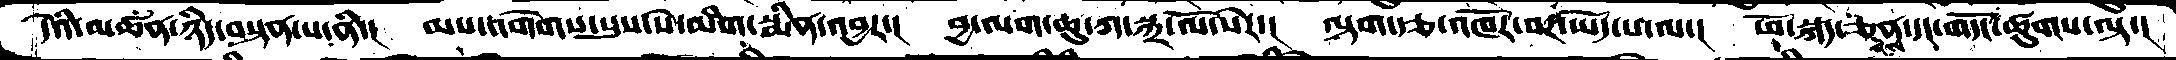དེའི་མཚན་ཉིད་བསྟན་པ་ནི་།  མས་བགེགས་སུས་སེ་མིག་སྨིན་འབྱར་།།  བྱ་ལག་ཆུ་ཀ་སྐྲ་ལོ་སེར་།  ལྟག་རྩ་འཁོར་བར་ཡོད་པ་ལ་། ཕོ་སྐད་ཅན་དང་གདོང་ཚུགས་ལྟ་།
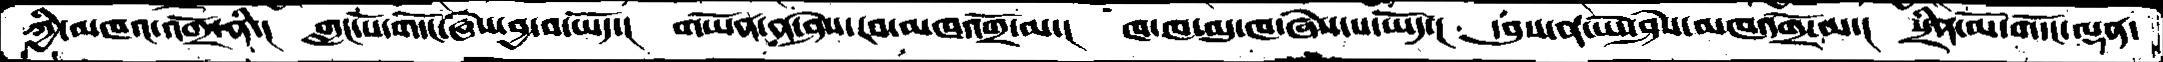ཀྱི་མཁའ་འགྲོ་ནི་།  གླང་པོ་གདོང་ཞེས་བྱ་བ་ཡོད་།  གཡོན་ན་ཤེས་རབ་མཁའགྲོ་མ་།  ཁ་ཁ་མུ་ཁ་ཞེས་པ་ཡོད་།  དབུས་ན་ཡེ་ཤེས་མཁའགྲོ་མ་།  སྲིན་མོ་གདོང་ལྡན་
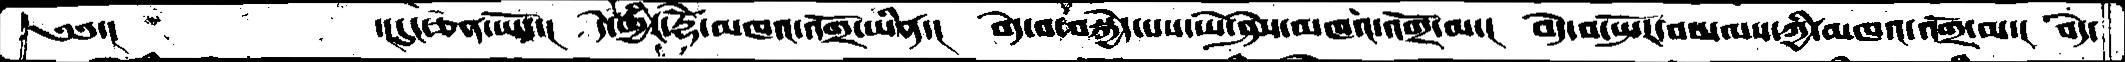༅༅་།       ་།དུང་ཅན་ཡོད་།  དེ་ཕྱིར་རྡོེ་མཁའ་འགྲོ་ཡིན་།  བདེ་བ་བསྐྱེད་པས་ཡེ་ཤེས་མཁའ་འགྲོ་མ་།  བདེ་བ་སྤོར་བས་ལས་ཀྱི་མཁའ་འགྲོ་མ་།  བདེ་
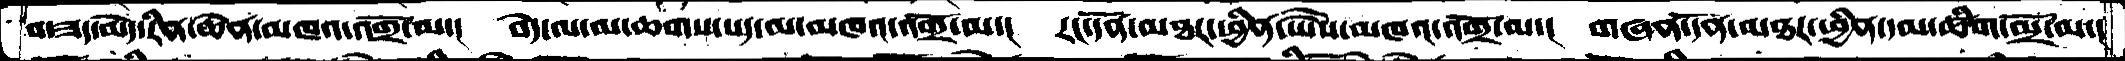བ་ཟད་མེད་རིན་ཆེན་མཁའ་འགྲོ་མ་།  བདེ་ལ་མ་ཆགས་པད་མ་མཁའ་འགྲོ་མ་།  རང་དོན་མཐཪ་ཕྱིན་ཡཻས་མཁའ་འགྲོ་མ་།  གཞན་དོན་མཐར་ཕྱིན་དམ་ཚིག་མྲོ་མ་།
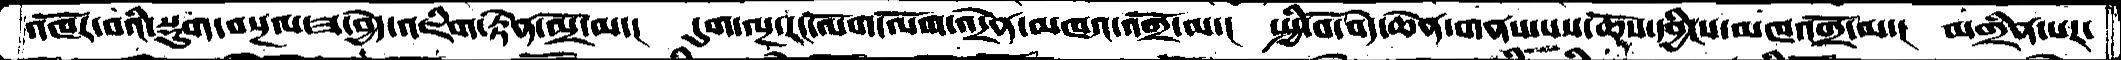འཁོར་བའི་སྡུག་བསྔལ་ཟ་བྱེད་འཇིག་རྟེན་མྲོ་མ་།  དུག་ལྔ་རང་ལོག་ལོག་འདྲེན་མཁའ་འགྲོ་མ་།  སྤྱི་བོ་བདེ་ཆེན་གནས་པས་ཆོས་དབྱིངས་མཁའ་འགྲོ་མ་།  མགྲིན་པར་
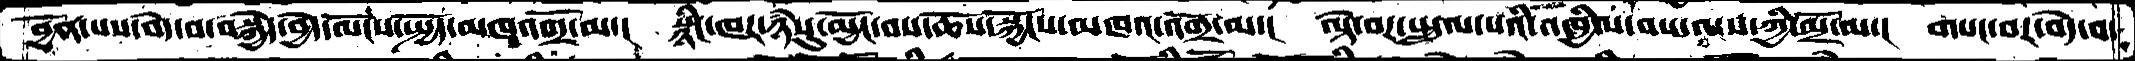བྱོན་པས་བདེ་བ་བསྐྱེད་བྱེད་ལོངས་སྤྱོད་མཁའགྲོ་མ་།  སྙིང་ཁར་ཉཾསུ་མྱོང་བས་ཆོས་སྐྱོངས་མཁའ་འགྲོ་མ་།  ལྟེ་བར་སྤྲུལ་པའི་འཁྱིལ་བས་ལས་ཀྱི་མྲོ་མ་།  གསང་བར་བདེ་བ་
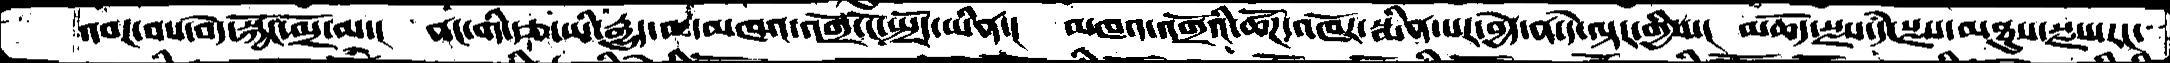འབར་བས་བདེ་སྐྱོང་མྲོ་མ་།  ནང་གི་རྩ་ཡི་རྒྱུད་ལ་མཁའ་འགྲོ་ངོ་སྤྲོད་ཡིན་།  མཁའ་འགྲོའི་ཚོཌ་འཁོར་སྨིན་པར་བྱེད་ན་དེ་ལྟར་གྱིས་།  མཆོད་སྫས་དེ་སྫས་མཐུས་སྫས་རང་
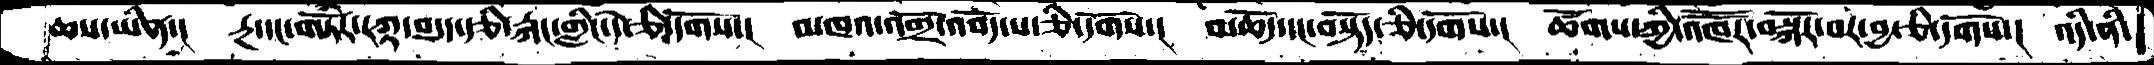ཆས་ཡིན་།  རྔ་དང་གཏོཾར་རཀྟ་བདུད་རྩི་རྐང་གླིང་དེ་ཅི་དགོས་།  མཁའ་འགྲོ་འབོད་པ་ཅི་དགོས་།  མཆོད་དང་བསྟོད་ཅི་དགོས་།  ཚོགས་ཀྱི་འཁཽར་བསྐོར་བར་བྱ་ཅི་དགོས་།  འདི་ནི་
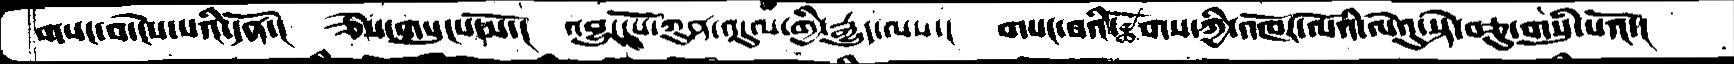གསང་བ་ངེས་པའི་དོན་།  ཅེས་གསུངས་སོ་།  འབྱུང་པོ་ཀུན་འདུལ་གྱི་རྒྱུད་ལས་།  གསང་བའི་ཚོགས་ཀྱི་འཁོར་ལོའི་ལེའུ་སྟེ་བཅུ་གསུཾ་པའོ་།
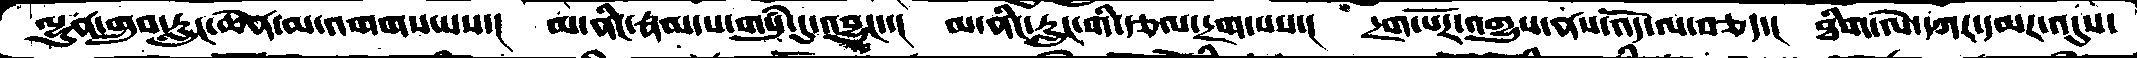ལྷུན་གྲུབ་རླུང་ཆེན་མ་འགགས་པས་།  མ་ནིང་རྣམ་པ་གསུཾ་དུ་འབྱུང་་།  མ་ནིང་རླུང་གི་རྩལ་དྲག་པས་།  དྲག་པོར་འགྱུས་ནས་འོད་ལ་བཅད་།  ཐིག་ལེ་དཀར་དམར་འདུས་
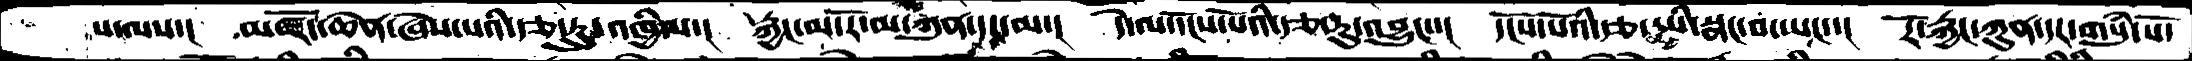པ་ལས་།  མཛོད་ཆེན་ཞེས་པའི་རྩ་རུ་འཁྱིལ་།  རྐྱང་མ་རོ་མ་ཀུན་དང་མ་།  དེ་ལ་དངོས་པོའི་རྩ་རུ་འབྱུང་་།  དངོས་པོའི་རྩ་ཡི་སྣང་བ་ཡང་་།  རོ་རྐྱང་ཀུན་དར་གསུཾ་པོ་
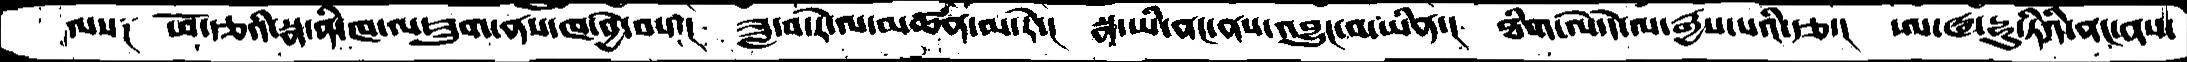ལས༑  ཕོ་རྩའི་སྣ་ནི་ཁ་ལ་ཟུག་ནས་ཁ་བྱེ་བས་།  ཟླ་བ་རེ་ལ་མཚན་མ་རེ་།  སྣ་ཡི་ནང་ནས་འབྱུང་བ་ཡིན་།  ཐིག་ལེ་དེ་ལ་རྒྱས་པའི་རྩ་།  ཨ་ཝ་དྷུ་ཏིའི་ནང་ནས་
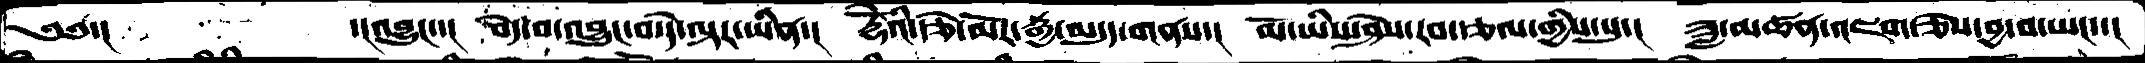༄༅་།        ་།འབྱུང་་།  བདེ་བ་འབྱུང་བ་དེ་ལྟར་ཡིན་།  རྡོེའི་རྩེ་མོར་རྒྱ་མདུད་གནས་།  མོ་ཡིས་ཤེས་རབ་རྩལ་གྱིས་སུ་། ཟླ་མཚན་འཇག་ཅེས་བྱ་བ་ཡང་་།
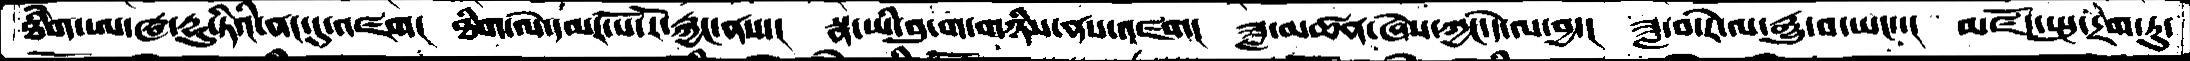ཐིགེ་ཨ་ཝ་དྷུ་ཏིའི་ནང་དུ་འཛག།  ཐིག་ལེ་དམར་པོ་རོ་རྐྱང་ནས་།  སྣ་ཡི་བུ་ག་གཉིས་ནས་འཇག།  ཟླ་མཚན་ཞེས་ཀྱང་དེ་ལ་བྱ་།  ཟླ་བ་རེ་ལ་རྒྱུ་བ་ཡང་་། མཛོད་སྤུ་དྲག་ཏུ་
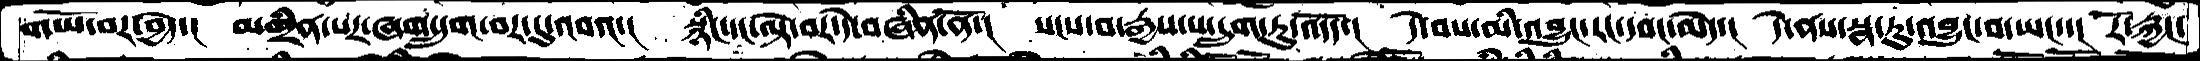གཡོ་བར་བྱེད་།  མགྲིན་པར་ཞག་དྲུག་བར་དུ་འབའ་།  སྙིང་དང་ལྟེ་བར་དེ་བཞིན་ནོ་།  སངས་བ་རྒྱས་པ་དྲུག་ཏུ་འདོད་།  དེ་བས་མི་འབྱུང་རང་དབང་མེད་།  དེ་ནས་སྣ་ཏུ་བྱུང་བ་ཡང་་། རོ་རྐྱང་
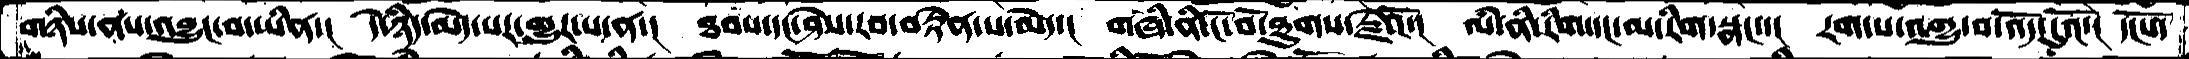གཉིས་ནས་འབྱུང་བ་ཡིན་།  དེ་ཉིད་མེད་པར་འགྱུར་པ་ན་།  ཐབས་དང་ཤེས་རབ་བརྟེན་པ་མེད་།  གཞི་ནི་ངོ་བོ་ཐུགས་རྗེའོ་།  ལཾ་ནི་རིག་དང་མ་རིག་སྣང་་།  རགཔ་འགྱུ་བ་འོད་དུའོ་།  དངོས་
